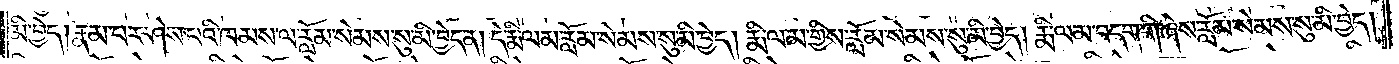མི་བྱེད། རྣམ་པར་ཤེས་པའི་ཁམས་ལ་རློམ་སེམས་སུ་མི་བྱེད་ན། དེ་རྨི་ལམ་རློམ་སེམས་སུ་མི་བྱེད། རྨི་ལམ་གྱིས་རློམ་སེམས་སུ་མི་བྱེད། རྨི་ལམ་བདག་གི་ཞེས་རློམ་སེམས་སུ་མི་བྱེད།
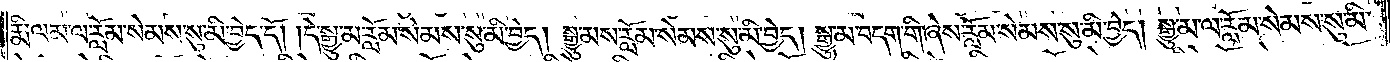རྨི་ལམ་ལ་རློམ་སེམས་སུ་མི་བྱེད་དོ། །དེ་སྒྱུ་མ་རློམ་སེམས་སུ་མི་བྱེད། སྒྱུ་མས་རློམ་སེམས་སུ་མི་བྱེད། སྒྱུ་མ་བདག་གི་ཞེས་རློམ་སེམས་སུ་མི་བྱེད། སྒྱུ་མ་ལ་རློམ་སེམས་སུ་མི་
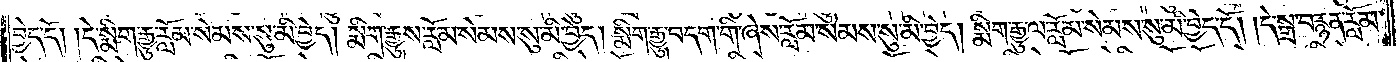བྱེད་དོ། །དེ་སྨིག་རྒྱུ་རློམ་སེམས་སུ་མི་བྱེད། སྨིག་རྒྱུས་རློམ་སེམས་སུ་མི་བྱེད། སྨིག་རྒྱུ་བདག་གི་ཞེས་རློམ་སེམས་སུ་མི་བྱེད། སྨིག་རྒྱུ་ལ་རློམ་སེམས་སུ་མི་བྱེད་དོ། །དེ་སྒྲ་བརྙན་རློམ་
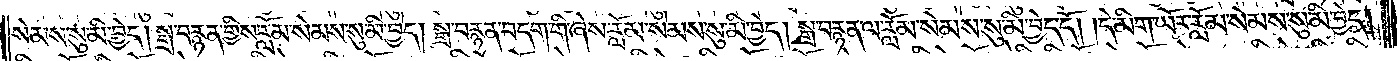སེམས་སུ་མི་བྱེད། སྒྲ་བརྙན་གྱིས་རློམ་སེམས་སུ་མི་བྱེད། སྒྲ་བརྙན་བདག་གི་ཞེས་རློམ་སེམས་སུ་མི་བྱེད། སྒྲ་བརྙན་ལ་རློམ་སེམས་སུ་མི་བྱེད་དོ། །དེ་མིག་ཡོར་རློམ་སེམས་སུ་མི་བྱེད།
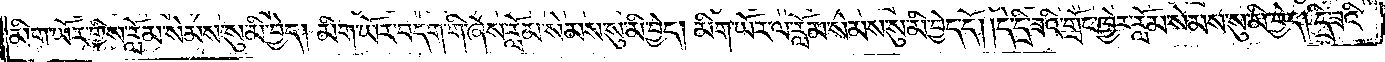མིག་ཡོར་གྱིས་རློམ་སེམས་སུ་མི་བྱེད། མིག་ཡོར་བདག་གི་ཞེས་རློམ་སེམས་སུ་མི་བྱེད། མིག་ཡོར་ལ་རློམ་སེམས་སུ་མི་བྱེད་དོ། །དེ་དྲི་ཟའི་གྲོང་ཁྱེར་རློམ་སེམས་སུ་མི་བྱེད། དྲི་ཟའི་
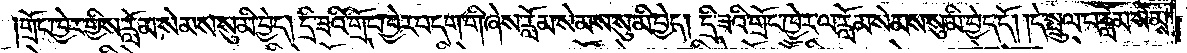གྲོང་ཁྱེར་གྱིས་རློམ་སེམས་སུ་མི་བྱེད། དྲི་ཟའི་གྲོང་ཁྱེར་བདག་གི་ཞེས་རློམ་སེམས་སུ་མི་བྱེད། དྲི་ཟའི་གྲོང་ཁྱེར་ལ་རློམ་སེམས་སུ་མི་བྱེད་དོ། །དེ་སྤྲུལ་པ་རློམ་སེམས་
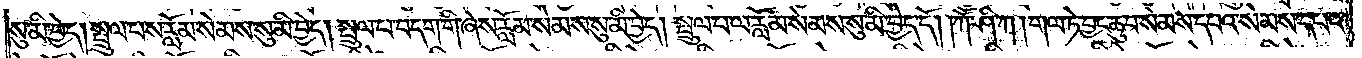སུ་མི་བྱེད། སྤྲུལ་པས་རློམ་སེམས་སུ་མི་བྱེད། སྤྲུལ་པ་བདག་གི་ཞེས་རློམ་སེམས་སུ་མི་བྱེད། སྤྲུལ་པ་ལ་རློམ་སེམས་སུ་མི་བྱེད་དོ། །ཀཽ་ཤི་ཀ། གལ་ཏེ་བྱང་ཆུབ་སེམས་དཔའ་སེམས་དཔའ་
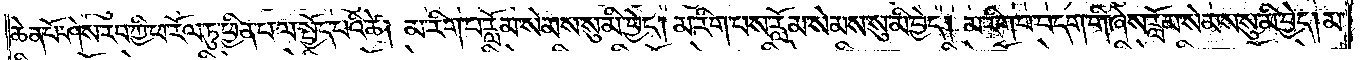ཆེན་པོ་ཤེས་རབ་ཀྱི་ཕ་རོལ་ཏུ་ཕྱིན་པ་ལ་སྤྱོད་པའི་ཚེ། མ་རིག་པ་རློམ་སེམས་སུ་མི་བྱེད། མ་རིག་པས་རློམ་སེམས་སུ་མི་བྱེད། མ་རིག་བདག་གི་ཞེས་རློམ་སེམས་སུ་མི་བྱེད། མ་
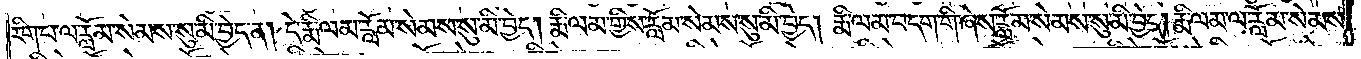རིག་པ་ལ་རློམ་སེམས་སུ་མི་བྱེད་ན། དེ་རྨི་ལམ་རློམ་སེམས་སུ་མི་བྱེད། རྨི་ལམ་གྱིས་རློམ་སེམས་སུ་མི་བྱེད། རྨི་ལམ་བདག་གི་ཞེས་རློམ་སེམས་སུ་མི་བྱེད། རྨི་ལམ་ལ་རློམ་སེམས་
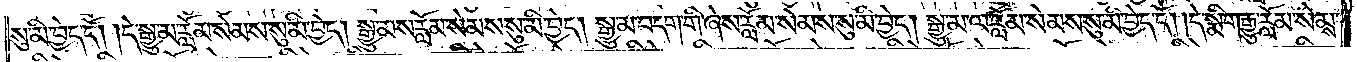སུ་མི་བྱེད་དོ། །དེ་སྒྱུ་མ་རློམ་སེམས་སུ་མི་བྱེད། སྒྱུ་མས་རློམ་སེམས་སུ་མི་བྱེད། སྒྱུ་མ་བདག་གི་ཞེས་རློམ་སེམས་སུ་མི་བྱེད། སྒྱུ་མ་ལ་རློམ་སེམས་སུ་མི་བྱེད་དོ། །དེ་སྨིག་རྒྱུ་རློམ་སེམས་
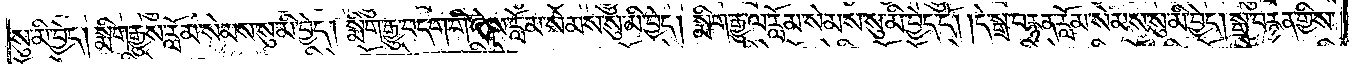སུ་མི་བྱེད། སྨིག་རྒྱུས་རློམ་སེམས་སུ་མི་བྱེད། སྨིག་རྒྱུ་བདག་གི་ཞེས་རློམ་སེམས་སུ་མི་བྱེད། སྨིག་རྒྱུ་ལ་རློམ་སེམས་སུ་མི་བྱེད་དོ། །དེ་སྒྲ་བརྙན་རློམ་སེམས་སུ་མི་བྱེད། སྒྲ་བརྙན་གྱིས་
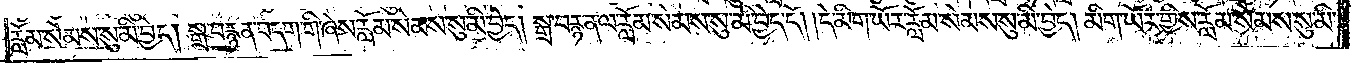རློམ་སེམས་སུ་མི་བྱེད། སྒྲ་བརྙན་བདག་གི་ཞེས་རློམ་སེམས་སུ་མི་བྱེད། སྒྲ་བརྙན་ལ་རློམ་སེམས་སུ་མི་བྱེད་དོ། །དེ་མིག་ཡོར་རློམ་སེམས་སུ་མི་བྱེད། མིག་ཡོར་གྱིས་རློམ་སེམས་སུ་མི་
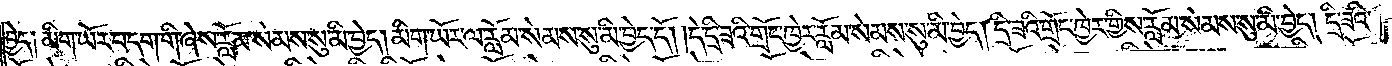བྱེད༑ མིག་ཡོར་བདག་གི་ཞེས་རློམ་སེམས་སུ་མི་བྱེད། མིག་ཡོར་ལ་རློམ་སེམས་སུ་མི་བྱེད་དོ། །དེ་དྲི་ཟའི་གྲོང་ཁྱེར་རློམ་སེམས་སུ་མི་བྱེད། དྲི་ཟའི་གྲོང་ཁྱེར་གྱིས་རློམ་སེམས་སུ་མི་བྱེད། དྲི་ཟའི་
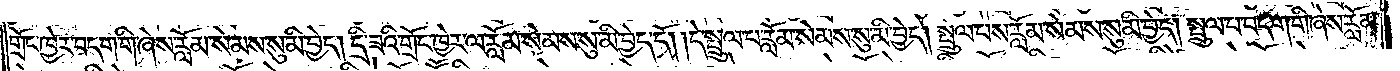གྲོང་ཁྱེར་བདག་གི་ཞེས་རློམ་སེམས་སུ་མི་བྱེད། དྲི་ཟའི་གྲོང་ཁྱེར་ལ་རློམ་སེམས་སུ་མི་བྱེད་དོ། །དེ་སྤྲུལ་པ་རློམ་སེམས་སུ་མི་བྱེད། སྤྲུལ་པས་རློམ་སེམས་སུ་མི་བྱེད། སྤྲུལ་པ་བདག་གི་ཞེས་རློམ་
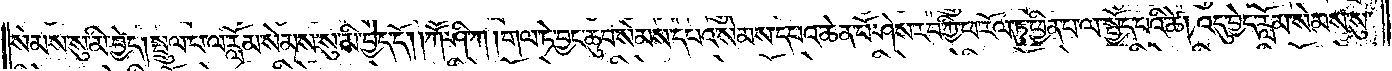སེམས་སུ་མི་བྱེད། སྤྲུལ་པ་ལ་རློམ་སེམས་སུ་མི་བྱེད་དོ། །ཀཽ་ཤི་ཀ། གལ་ཏེ་བྱང་ཆུབ་སེམས་དཔའ་སེམས་དཔའ་ཆེན་པོ་ཤེས་རབ་ཀྱི་ཕ་རོལ་ཏུ་ཕྱིན་པ་ལ་སྤྱོད་པའི་ཚེ། འདུ་བྱེད་རློམ་སེམས་སུ་
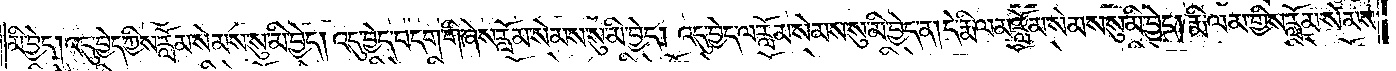མི་བྱེད། འདུ་བྱེད་ཀྱིས་རློམ་སེམས་སུ་མི་བྱེད། འདུ་བྱེད་བདག་གི་ཞེས་རློམ་སེམས་སུ་མི་བྱེད། འདུ་བྱེད་ལ་རློམ་སེམས་སུ་མི་བྱེད་ན། དེ་རྨི་ལམ་རློམ་སེམས་སུ་མི་བྱེད། རྨི་ལམ་གྱིས་རློམ་སེམས་
